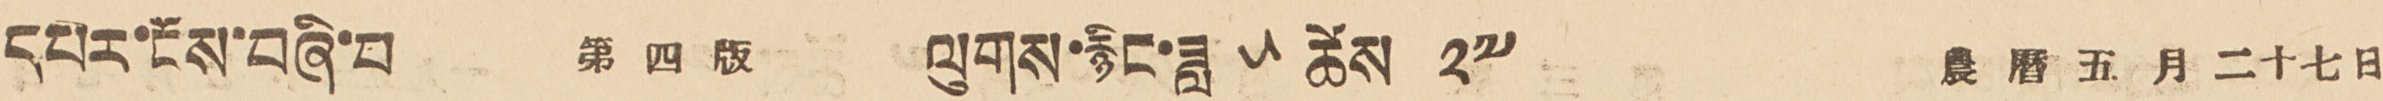དཔར་ངོས་བཞི་བ 第 四 版 ལུགས་རྙིང་ཟླ ༥ ཚེས ༢༧ 農 曆 五 月 二十七日
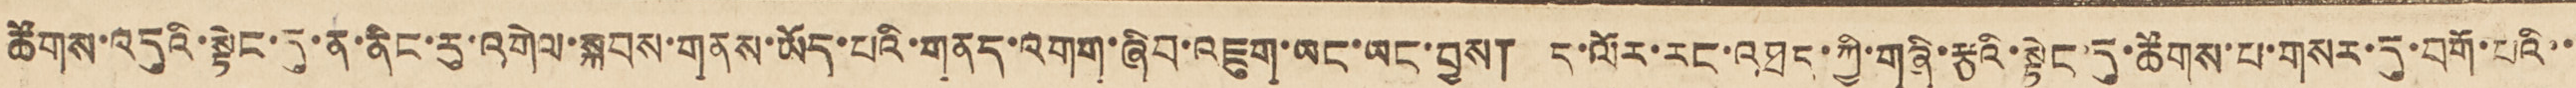ཚོགས་འདུའི་སྟེང་དུ་ན་ནིང་རུ་འགེལ་སྐབས་གནས་ཡོད་པའི་གནད་འགག་ཞིབ་འཇུག་ཡང་ཡང་བྱས། ད་ལོར་རང་འཐད་ཀྱི་གཞི་རྩའི་སྟེང་དུ་ཚོགས་པ་གསར་དུ་བགོ་པའི་་
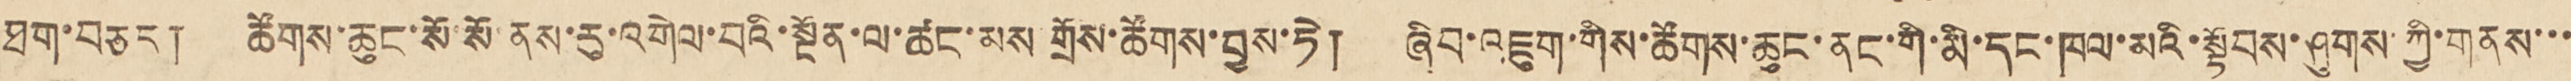ཐག་བཅད། ཚོགས་ཆུང་སོ་སོ་ནས་རུ་འགེལ་བའི་སྔོན་ལ་ཚང་མས གྲོས་ཚོགས་བྱས་ཏེ། ཞིབ་འཇུག་གིས་ཚོགས་ཆུང་ནང་གི་མི་དང་ཁལ་མའི་སྟོབས་ཤུགས་ཀྱི་གནས་་་
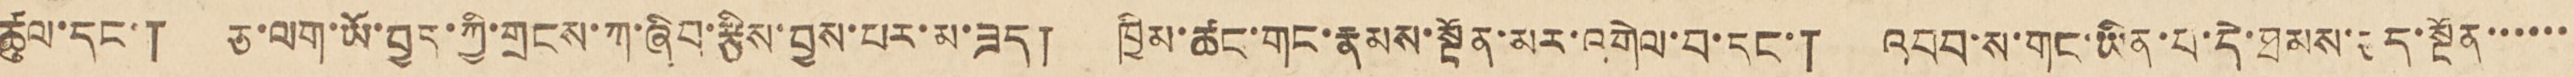ཚུལ་དང་། ཅ་ལག་ཡོ་བྱད་ཀྱི་གྲངས་ཀ་ཞིབ་རྩིས་བྱས་པར་མ་ཟད། ཁྱིམ་ཚང་གང་རྣམས་སྔོན་མར་འགེལ་བ་དང་། འབབ་ས་གང་ཡིན་པ་དེ་ཐབས་ཅད་སྔོན་་་་་་
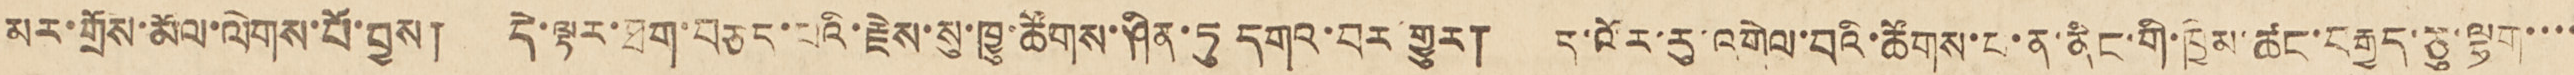མར་གྲོས་མོལ་ལེགས་པོ་བྱས། དེ་ལྟར་ཐག་བཅད་པའི་རྗེས་སུ་ཁྱུ་ཚོགས་ཤིན་ཏུ དགའ་བར་གྱུར། ད་ལོར་རུ་འགེལ་བའི་ཚོགས་པ་ན་ནིང་གི་ཁྱིམ་ཚང་བརྒྱད་ཅུ་ལྷག་་་་
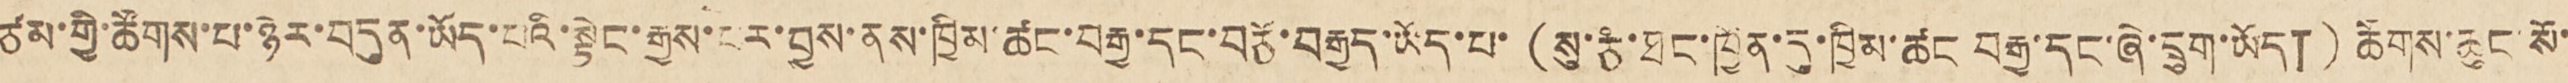ཙམ་གྱི་ཚོགས་པ་ཉེར་བདུན་ཡོད་པའི་སྟེང་རྒྱས་པར་བྱས་ནས་ཁྱིམ་ཚང་བརྒྱ་དང་བཅོ་བརྒྱད་ཡོད་པ་ (སུ་ཅཾ་ཐང་ཁྱིན་དུ་ཁྱིམ་ཚང བརྒྱ་དང་ཞེ་དྲུག་ཡོད།) ཚོགས་ཆུང་སོ་
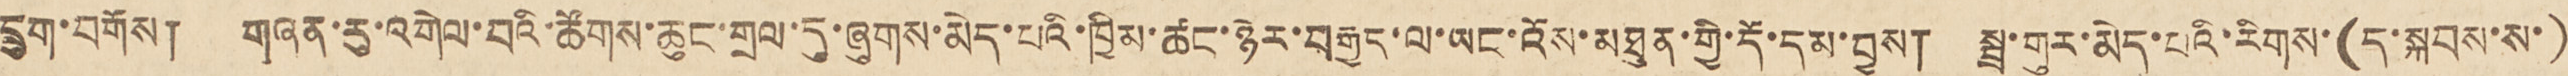དྲུག་བགོས། གཞན་རུ་འགེལ་བའི་ཚོགས་ཆུང་གྲལ་དུ་ཞུགས་མེད་པའི་ཁྱིམ་ཚང་ཉེར་བརྒྱད་ལ་ཡང་འོས་མཐུན་གྱི་དོ་དམ་བྱས། སྦྲ་གུར་མེད་པའི་རིགས་(ད་སྐབས་ས་)
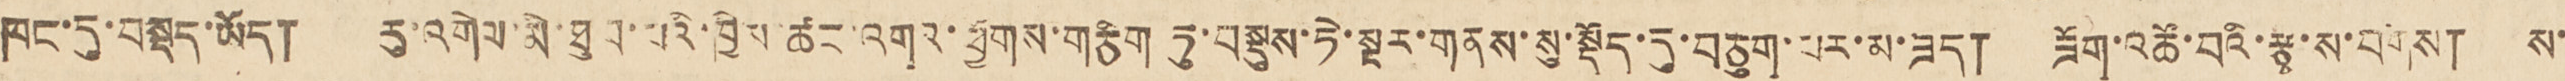ཁང་དུ་བསྡད་ཡོད། རུ་འགེལ་མི་ཐུབ་པའི་ཁྱིམ་ཚང་འགའ་ཕྱོགས་གཅིག ཏུ་བསྡུས་ཏེ་སྔར་གནས་སུ་སྡོད་དུ་བཅུག་པར་མ་ཟད། ཟོག་འཚོ་བའི་རྩྭ་ས་བགོས། ས་
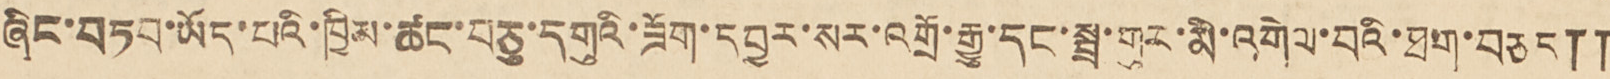ཞིང་བཏབ་ཡོད་པའི་ཁྱིམ་ཚང་བཅུ་དགུའི་ཟོག་དབྱར་སར་འགྲོ་རྒྱུ་དང་སྦྲ་གུར་མི་འགེལ་བའི་ཐག་བཅད༎
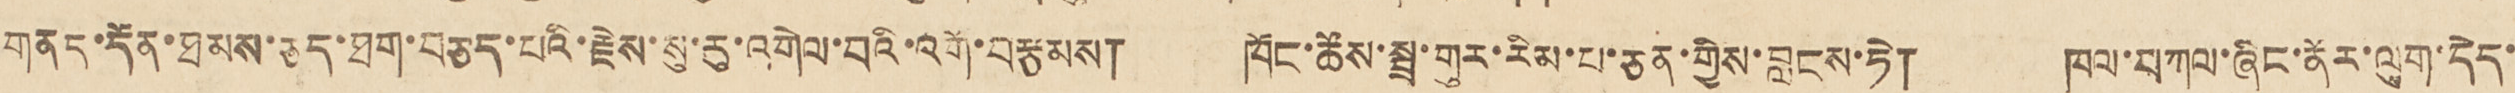གནད་དོན་ཐམས་ཅད་ཐག་བཅད་པའི་རྗེས་སུ་རུ་འགེལ་བའི་འགོ་བརྩམས། ཁོང་ཚོས་སྦྲ་གུར་རིམ་པ་ཅན་གྱིས་བླངས་ཏེ། ཁལ་བཀལ་ཞིང་ནོར་ལུག་དེད་
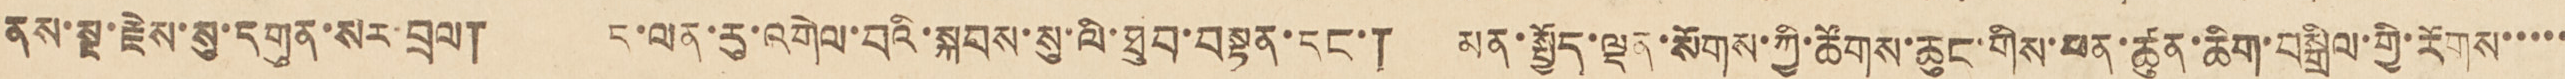ནས་སྔ་རྗེས་སུ་དགུན་སར་བྲལ། ད་ལན་རུ་འགེལ་བའི་སྐབས་སུ་ལི་ཐུབ་བསྟན་དང་། མན་སྤྱོད་ལྡན་སོགས་ཀྱི་ཚོགས་ཆུང་གིས་ཕན་ཚུན་ཆིག་བསྒྲིལ་གྱི་རོགས་་་་་
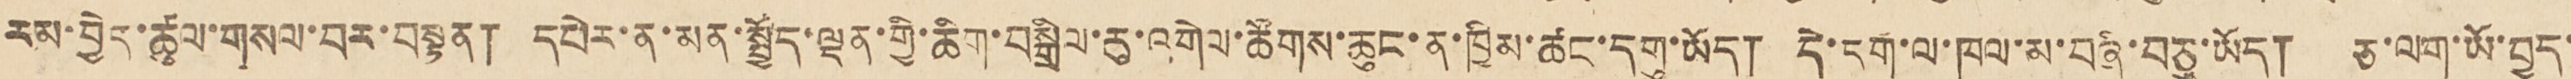རམ་བྱེད་ཚུལ་གསལ་བར་བསྟན། དཔེར་ན་མན་སྤྱོད་ལྡན་གྱི་ཆིག་བསྒྲིལ་རུ་འགེལ་ཚོགས་ཆུང་ན་ཁྱིམ་ཚང་དགུ་ཡོད། དེ་དག་ལ་ཁལ་མ་བཞི་བཅུ་ཡོད། ཅ་ལག་ཡོ་བྱད་
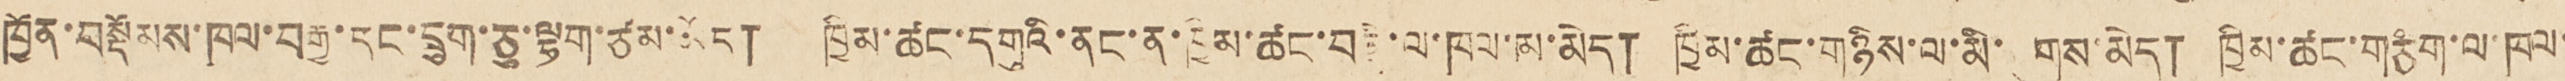ཁྱོན་བསྡོམས་ཁལ་བརྒྱ་དང་དྲུག་ཅུ་ལྷག་ཙམ་ཡོད། ཁྱིམ་ཚང་དགུའི་ནང་ན་ཁྱིམ་ཚང་བཞི་ལ་ཁལ་མ་མེད། ཁྱིམ་ཚང་གཉིས་ལ་མི་ཤུགས་མེད། ཁྱིམ་ཚང་གཅཾག་ལ་ཁལ་
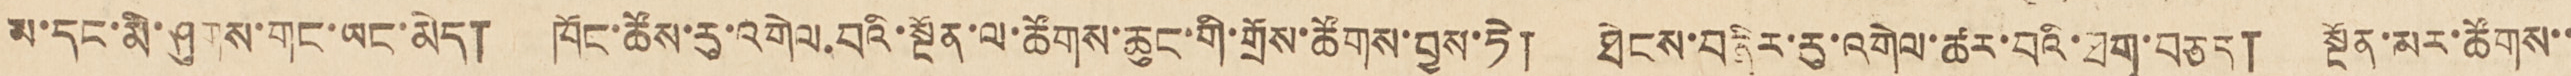མ་དང་མི་ཤུགས་གང་ཡང་མེད། ཁོང་ཚོས་རུ་འགེལ་བའི་སྔོན་ལ་ཚོགས་ཆུང་གི་གྲོས་ཚོགས་བྱས་ཏེ། ཐེངས་བཞིར་རུ་འགེལ་ཚར་བའི་ཐག་བཅད། སྔོན་མར་ཚོགས་་
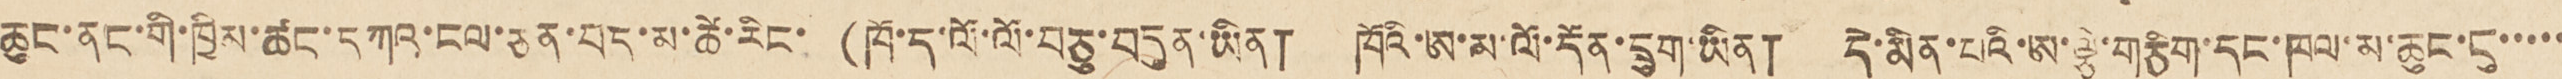ཆུང་ནང་གི་ཁྱིམ་ཚང་དཀའ་ངལ་ཅན་པད་མ་ཚེ་རིང་ (ཁོ་ད་ལོ་ལོ་བཅུ་བདུན་ཡིན། ཁོའི་ཨ་མ་ལོ་དོན་དྲུག་ཡིན། དེ་མིན་པའི་ཨ་ལྕེ་གཅིག་དང་ཁལ་མ་ཆུང་ངུ་་་་་
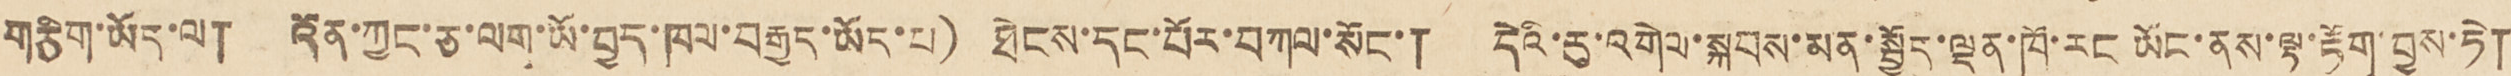གཅིག་ཡོད་ལ། འོན་ཀྱང་ཅ་ལག་ཡོ་བྱད་ཁལ་བརྒྱད་ཡོད་པ) ཐེངས་དང་པོར་བཀལ་སོང་། དེའི་རུ་འགེལ་སྐབས་མན་སྤྱོད་ལྡན་ཁོ་རང ཡོང་ནས་ལྟ་རྟོག་བྱས་ཏེ།
